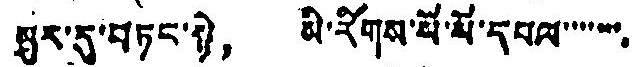མུར་དུ་བཏང་སྟེ， མི་རིགས་པོ་སོ་དཔལ་་་་་་་
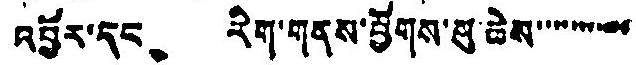འབྱོར་དང、 རིག་གནས་ཕྱོགས་སུ་ཆེས་་་་་་་་་་་
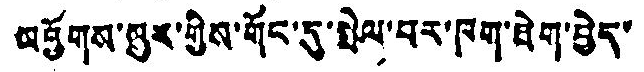མཕྱོགས་མྱུར་གྱིས་གོང་དུ་སྤེལ་བར་ཁག་ཐེག་བྱེད་
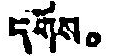དགོས。
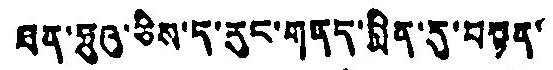ཐན་ཧྲུའུ་ཅིས་ད་རུང་གནད་སྨིན་དུ་བསྟན་
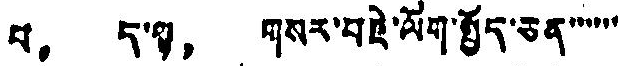པ， ད་ལྟ， གསར་བརྗེ་ལོག་སྤྱོད་ཅན་་་་་་
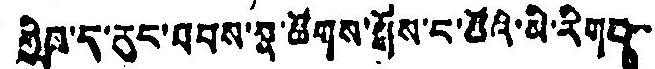གླིབ་ད་རུང་བབས་སྣ་ཚོགས་སྒོས་ང་ཚོའི་མི་རིགས་་
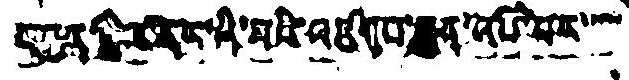ག་་དདའ་མའི་འཛུགཔ་རུན་འབྱ་བར་་་་་
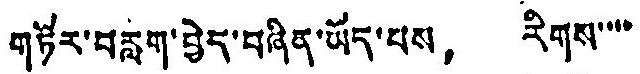གཏོར་བརླག་བྱེད་བཞིན་ཡོད་པས， རིགས་་་་
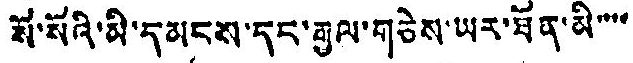སོ་སོའི་མི་དམངས་དང་རྒྱལ་གཅེས་ཡར་ཐོན་མི་་་་་
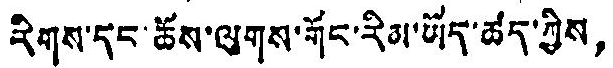རིགས་དང་ཆོས་ལུགས་གོང་རིམ་ཡོད་ཚད་ཀྱིས，
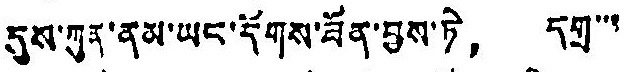དུས་ཀུན་ནམ་ཡང་དོགས་ཟོན་བྱས་ཏེ， དགྲ་་་
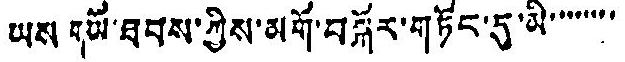ཡས གཡོ་ཐབས་ཀྱིས་མགོ་བསྐོར་གཏོང་དུ་མི་་་་་་་་་
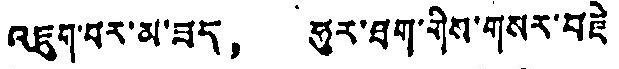འཇུག་པར་མ་ཟད， ཧུར་ཐག་གིས་གསར་བརྗེ
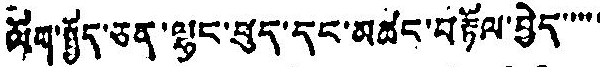ལོག་སྤྱོད་ཅན་ལྷང་ཕུང་དང་མཚང་བརྟོལ་བྱེད་་་་་
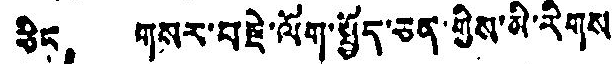ཅིང， གསར་བརྗེ་ལོག་སྤྱོད་ཅན་གྱིས་མི་རིགས
